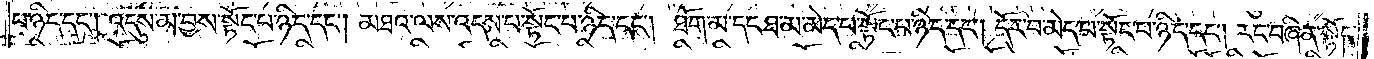པ་ཉིད་དང༌། འདུས་མ་བྱས་སྟོང་པ་ཉིད་དང༌། མཐའ་ལས་འདས་པ་སྟོང་པ་ཉིད་དང༌། ཐོག་མ་དང་ཐ་མ་མེད་པ་སྟོང་པ་ཉིད་དང༌། དོར་བ་མེད་པ་སྟོང་པ་ཉིད་དང༌། རང་བཞིན་སྟོང་
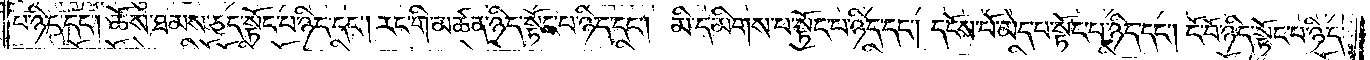པ་ཉིད་དང༌། ཆོས་ཐམས་ཅད་སྟོང་པ་ཉིད་དང༌། རང་གི་མཚན་ཉིད་སྟོང་པ་ཉིད་དང༌། མི་དམིགས་པ་སྟོང་པ་ཉིད་དང༌། དངོས་པོ་མེད་པ་སྟོང་པ་ཉིད་དང༌། ངོ་བོ་ཉིད་སྟོང་པ་ཉིད་
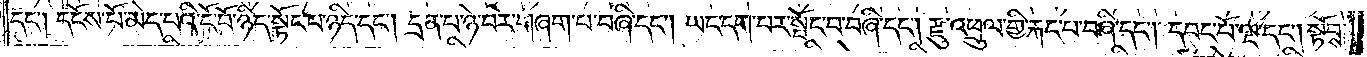དང༌། དངོས་པོ་མེད་པའི་ངོ་བོ་ཉིད་སྟོང་པ་ཉིད་དང༌། དྲན་པ་ཉེ་བར་གཞག་པ་བཞི་དང༌། ཡང་དག་པར་སྤོང་བ་བཞི་དང༌། རྫུ་འཕྲུལ་གྱི་རྐང་པ་བཞི་དང༌། དབང་པོ་ལྔ་དང༌། སྟོབས་
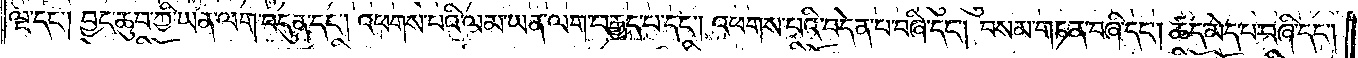ལྔ་དང༌། བྱང་ཆུབ་ཀྱི་ཡན་ལག་བདུན་དང༌། འཕགས་པའི་ལམ་ཡན་ལག་བརྒྱད་པ་དང༌། འཕགས་པའི་བདེན་པ་བཞི་དང༌། བསམ་གཏན་བཞི་དང༌། ཚད་མེད་པ་བཞི་དང༌།
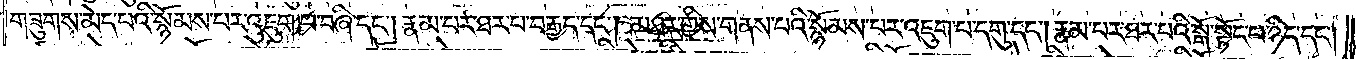གཟུགས་མེད་པའི་སྙོམས་པར་འཇུག་པ་བཞི་དང༌། རྣམ་པར་ཐར་པ་བརྒྱད་དང༌། མཐར་གྱིས་གནས་པའི་སྙོམས་པར་འཇུག་པ་དགུ་དང༌། རྣམ་པར་ཐར་པའི་སྒོ་སྟོང་པ་ཉིད་དང༌།
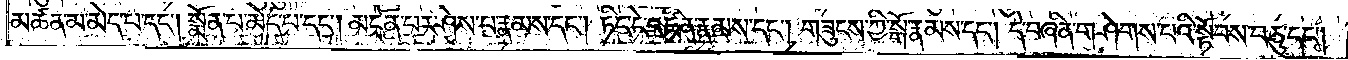མཚན་མ་མེད་པ་དང༌། སྨོན་པ་མེད་པ་དང༌། མངོན་པར་ཤེས་པ་རྣམས་དང༌། ཏིང་ངེ་འཛིན་རྣམས་དང༌། གཟུངས་ཀྱི་སྒོ་རྣམས་དང༌། དེ་བཞིན་གཤེགས་པའི་སྟོབས་བཅུ་དང༌།
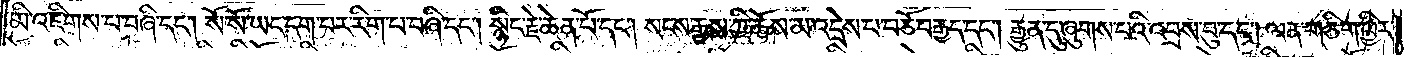མི་འཇིགས་པ་བཞི་དང༌། སོ་སོ་ཡང་དག་པར་རིག་པ་བཞི་དང༌། སྙིང་རྗེ་ཆེན་པོ་དང༌། སངས་རྒྱས་ཀྱི་ཆོས་མ་འདྲེས་པ་བཅོ་བརྒྱད་དང༌། རྒྱུན་དུ་ཞུགས་པའི་འབྲས་བུ་དང༌། ལན་གཅིག་ཕྱིར་
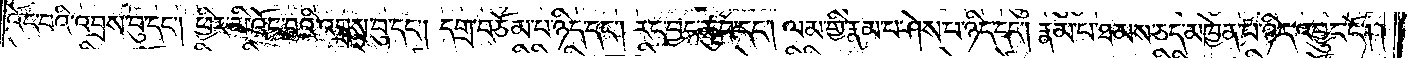འོང་བའི་འབྲས་བུ་དང༌། ཕྱིར་མི་འོང་བའི་འབྲས་བུ་དང༌། དགྲ་བཅོམ་པ་ཉིད་དང༌། རང་བྱང་ཆུབ་དང༌། ལམ་གྱི་རྣམ་པ་ཤེས་པ་ཉིད་དང༌། རྣམ་པ་ཐམས་ཅད་མཁྱེན་པ་ཉིད་འབྱུང་ངོ༌། །
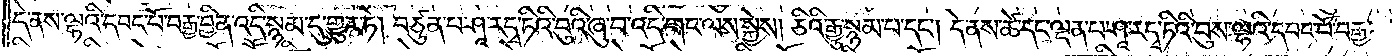དེ་ནས་ལྷའི་དབང་པོ་བརྒྱ་བྱིན་འདི་སྙམ་དུ་གྱུར་ཏེ། བཙུན་པ་ཤཱ་ར་དྭ་ཏིའི་བུའི་ཞུ་བ་འདི་གང་ལས་སྐྱེས། ཅིའི་རྒྱུ་སྙམ་པ་དང༌། དེ་ནས་ཚེ་དང་ལྡན་པ་ཤཱ་ར་དྭ་ཏིའི་བུས་ལྷའི་དབང་པོ་བརྒྱ་
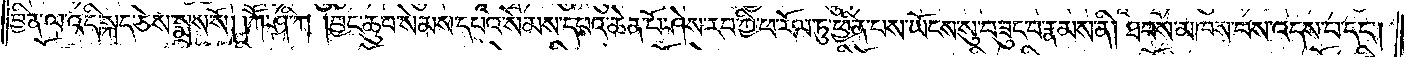བྱིན་ལ་འདི་སྐད་ཅེས་སྨྲས་སོ། །ཀཽ་ཤི་ཀ། བྱང་ཆུབ་སེམས་དཔའ་སེམས་དཔའ་ཆེན་པོ་ཤེས་རབ་ཀྱི་ཕ་རོལ་ཏུ་ཕྱིན་པས་ཡོངས་སུ་བཟུང་བ་རྣམས་ནི། ཐབས་མཁས་པས་འདས་པ་དང༌།
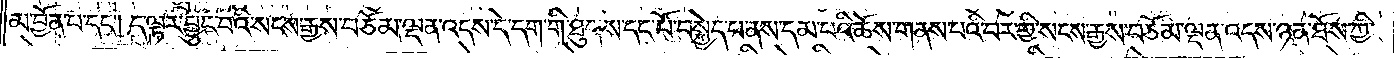མ་བྱོན་པ་དང༌། ད་ལྟར་བྱུང་བའི་སངས་རྒྱས་བཅོམ་ལྡན་འདས་དེ་དག་གི་ཐུགས་དང་པོ་བསྐྱེད་པ་ནས་དམ་པའི་ཆོས་གནས་པའི་བར་གྱི་སངས་རྒྱས་བཅོམ་ལྡན་འདས་ཉན་ཐོས་ཀྱི་
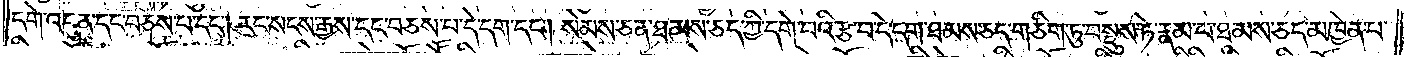དགེ་འདུན་དང་བཅས་པ་དང༌། རང་སངས་རྒྱས་དང་བཅས་པ་དེ་དག་དང༌། སེམས་ཅན་ཐམས་ཅད་ཀྱི་དགེ་བའི་རྩ་བ་དེ་དག་ཐམས་ཅད་གཅིག་ཏུ་བསྡུས་ཏེ་རྣམ་པ་ཐམས་ཅད་མཁྱེན་པ་
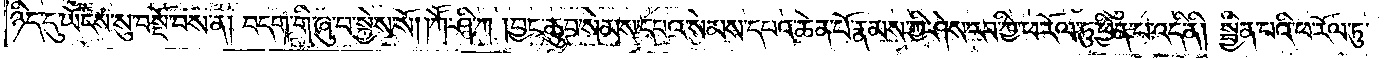ཉིད་དུ་ཡོངས་སུ་བསྔོ་བས་ན། བདག་གི་ཞུ་བ་སྐྱེས་སོ། །ཀཽ་ཤི་ཀ། བྱང་ཆུབ་སེམས་དཔའ་སེམས་དཔའ་ཆེན་པོ་རྣམས་ཀྱི་ཤེས་རབ་ཀྱི་ཕ་རོལ་ཏུ་ཕྱིན་པ་འདི་ནི། སྦྱིན་པའི་ཕ་རོལ་ཏུ་
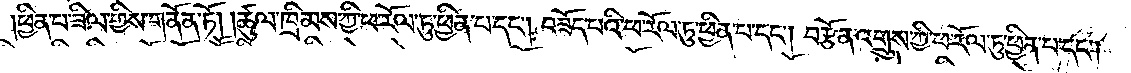ཕྱིན་པ་ཟིལ་གྱིས་གནོན་ཏོ། །ཚུལ་ཁྲིམས་ཀྱི་ཕ་རོལ་ཏུ་ཕྱིན་པ་དང༌། བཟོད་པའི་ཕ་རོལ་ཏུ་ཕྱིན་པ་དང༌། བརྩོན་འགྲུས་ཀྱི་ཕ་རོལ་ཏུ་ཕྱིན་པ་དང༌།
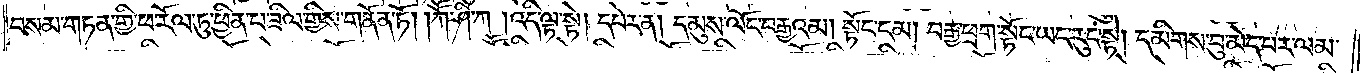བསམ་གཏན་གྱི་ཕ་རོལ་ཏུ་ཕྱིན་པ་ཟིལ་གྱིས་གནོན་ཏོ། །ཀཽ་ཤི་ཀ། འདི་ལྟ་སྟེ། དཔེར་ན། དམུས་ལོང་བརྒྱའམ། སྟོང་ངམ། བརྒྱ་ཕྲག་སྟོང་ཡང་རུང་སྟེ། དམིགས་བུ་མེད་པར་ལམ་
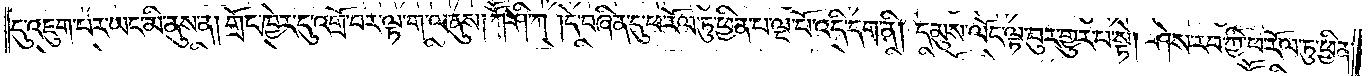དུ་འཇུག་པར་ཡང་མི་ནུས་ན། གྲོང་ཁྱེར་དུ་འགྲོ་བར་ལྟ་ག་ལ་ནུས། ཀཽ་ཤི་ཀ། དེ་བཞིན་དུ་ཕ་རོལ་ཏུ་ཕྱིན་པ་ལྔ་པོ་འདི་དག་ནི། དམུས་ལོང་ལྟ་བུར་གྱུར་པ་སྟེ། ཤེས་རབ་ཀྱི་ཕ་རོལ་ཏུ་ཕྱིན་
